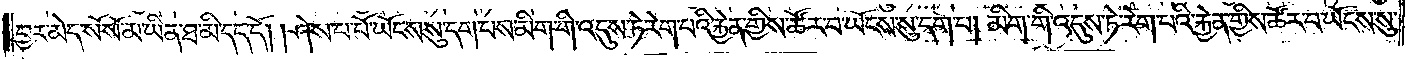བྱར་མེད་སོ་སོ་མ་ཡིན་ཐ་མི་དད་དོ། །ཤེས་པ་པོ་ཡོངས་སུ་དག་པས་མིག་གི་འདུས་ཏེ་རེག་པའི་རྐྱེན་གྱིས་ཚོར་བ་ཡོངས་སུ་དག་པ། མིག་གི་འདུས་ཏེ་རེག་པའི་རྐྱེན་གྱིས་ཚོར་བ་ཡོངས་སུ་
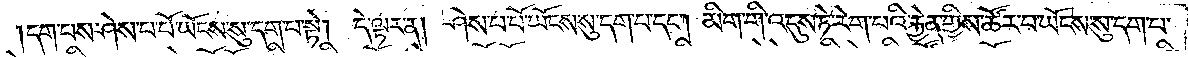དག་པས་ཤེས་པ་པོ་ཡོངས་སུ་དག་པ་སྟེ། དེ་ལྟར་ན། ཤེས་པ་པོ་ཡོངས་སུ་དག་པ་དང༌། མིག་གི་འདུས་ཏེ་རེག་པའི་རྐྱེན་གྱིས་ཚོར་བ་ཡོངས་སུ་དག་པ་
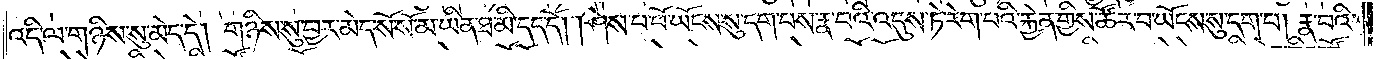འདི་ལ་གཉིས་སུ་མེད་དེ། གཉིས་སུ་བྱར་མེད་སོ་སོ་མ་ཡིན་ཐ་མི་དད་དོ། །ཤེས་པ་པོ་ཡོངས་སུ་དག་པས་རྣ་བའི་འདུས་ཏེ་རེག་པའི་རྐྱེན་གྱིས་ཚོར་བ་ཡོངས་སུ་དག་པ། རྣ་བའི་
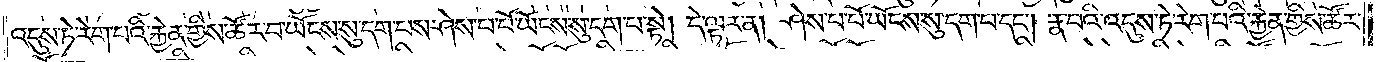འདུས་ཏེ་རེག་པའི་རྐྱེན་གྱིས་ཚོར་བ་ཡོངས་སུ་དག་པས་ཤེས་པ་པོ་ཡོངས་སུ་དག་པ་སྟེ། དེ་ལྟར་ན། ཤེས་པ་པོ་ཡོངས་སུ་དག་པ་དང༌། རྣ་བའི་འདུས་ཏེ་རེག་པའི་རྐྱེན་གྱིས་ཚོར་
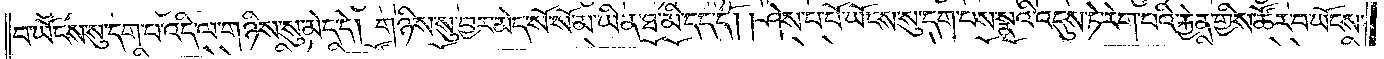བ་ཡོངས་སུ་དག་པ་འདི་ལ་གཉིས་སུ་མེད་དེ། གཉིས་སུ་བྱར་མེད་སོ་སོ་མ་ཡིན་ཐ་མི་དད་དོ། །ཤེས་པ་པོ་ཡོངས་སུ་དག་པས་སྣའི་འདུས་ཏེ་རེག་པའི་རྐྱེན་གྱིས་ཚོར་བ་ཡོངས་
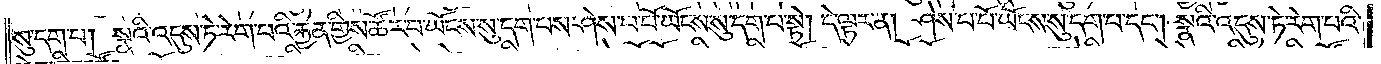སུ་དག་པ། སྣའི་འདུས་ཏེ་རེག་པའི་རྐྱེན་གྱིས་ཚོར་བ་ཡོངས་སུ་དག་པས་ཤེས་པ་པོ་ཡོངས་སུ་དག་པ་སྟེ། དེ་ལྟར་ན། ཤེས་པ་པོ་ཡོངས་སུ་དག་པ་དང༌། སྣའི་འདུས་ཏེ་རེག་པའི་
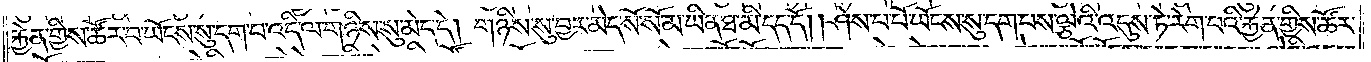རྐྱེན་གྱིས་ཚོར་བ་ཡོངས་སུ་དག་པ་འདི་ལ་གཉིས་སུ་མེད་དེ། གཉིས་སུ་བྱར་མེད་སོ་སོ་མ་ཡིན་ཐ་མི་དད་དོ། །ཤེས་པ་པོ་ཡོངས་སུ་དག་པས་ལྕེའི་འདུས་ཏེ་རེག་པའི་རྐྱེན་གྱིས་ཚོར་
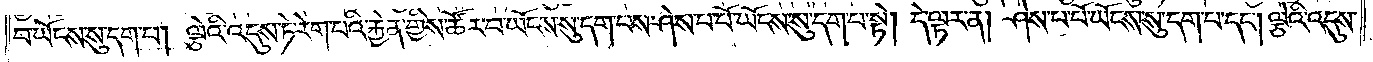བ་ཡོངས་སུ་དག་པ། ལྕེའི་འདུས་ཏེ་རེག་པའི་རྐྱེན་གྱིས་ཚོར་བ་ཡོངས་སུ་དག་པས་ཤེས་པ་པོ་ཡོངས་སུ་དག་པ་སྟེ། དེ་ལྟར་ན། ཤེས་པ་པོ་ཡོངས་སུ་དག་པ་དང༌། ལྕེའི་འདུས་
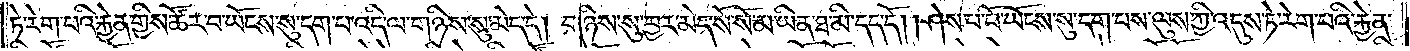ཏེ་རེག་པའི་རྐྱེན་གྱིས་ཚོར་བ་ཡོངས་སུ་དག་པ་འདི་ལ་གཉིས་སུ་མེད་དེ། གཉིས་སུ་བྱར་མེད་སོ་སོ་མ་ཡིན་ཐ་མི་དད་དོ། །ཤེས་པ་པོ་ཡོངས་སུ་དག་པས་ལུས་ཀྱི་འདུས་ཏེ་རེག་པའི་རྐྱེན་
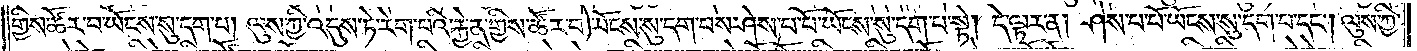གྱིས་ཚོར་བ་ཡོངས་སུ་དག་པ། ལུས་ཀྱི་འདུས་ཏེ་རེག་པའི་རྐྱེན་གྱིས་ཚོར་བ་ཡོངས་སུ་དག་པས་ཤེས་པ་པོ་ཡོངས་སུ་དག་པ་སྟེ། དེ་ལྟར་ན། ཤེས་པ་པོ་ཡོངས་སུ་དག་པ་དང༌། ལུས་ཀྱི་
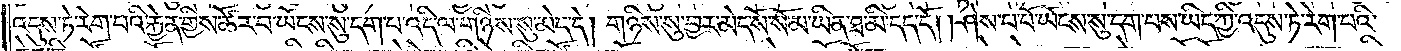འདུས་ཏེ་རེག་པའི་རྐྱེན་གྱིས་ཚོར་བ་ཡོངས་སུ་དག་པ་འདི་ལ་གཉིས་སུ་མེད་དེ། གཉིས་སུ་བྱར་མེད་སོ་སོ་མ་ཡིན་ཐ་མི་དད་དོ། །ཤེས་པ་པོ་ཡོངས་སུ་དག་པས་ཡིད་ཀྱི་འདུས་ཏེ་རེག་པའི་
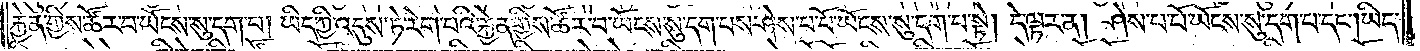རྐྱེན་གྱིས་ཚོར་བ་ཡོངས་སུ་དག་པ། ཡིད་ཀྱི་འདུས་ཏེ་རེག་པའི་རྐྱེན་གྱིས་ཚོར་བ་ཡོངས་སུ་དག་པས་ཤེས་པ་པོ་ཡོངས་སུ་དག་པ་སྟེ། དེ་ལྟར་ན། ཤེས་པ་པོ་ཡོངས་སུ་དག་པ་དང༌། ཡིད་
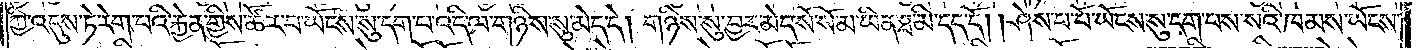ཀྱི་འདུས་ཏེ་རེག་པའི་རྐྱེན་གྱིས་ཚོར་བ་ཡོངས་སུ་དག་པ་འདི་ལ་གཉིས་སུ་མེད་དེ། གཉིས་སུ་བྱར་མེད་སོ་སོ་མ་ཡིན་ཐ་མི་དད་དོ། །ཤེས་པ་པོ་ཡོངས་སུ་དག་པས་སའི་ཁམས་ཡོངས་
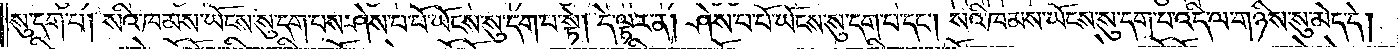སུ་དག་པ། སའི་མཁས་ཡོངས་སུ་དག་པས་ཤེས་པ་པོ་ཡོངས་སུ་དག་པ་སྟེ། དེ་ལྟར་ན། ཤེས་པ་པོ་ཡོངས་སུ་དག་པ་དང༌། སའི་ཁམས་ཡོངས་སུ་དག་པ་འདི་ལ་གཉིས་སུ་མེད་དེ།
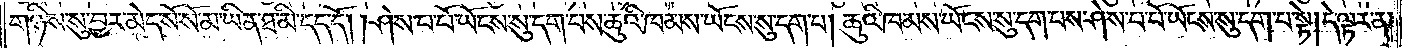གཉིས་སུ་བྱར་མེད་སོ་སོ་མ་ཡིན་ཐ་མི་དད་དོ། །ཤེས་པ་པོ་ཡོངས་སུ་དག་པས་ཆུའི་ཁམས་ཡོངས་སུ་དག་པ། ཆུའི་ཁམས་ཡོངས་སུ་དག་པས་ཤེས་པ་པོ་ཡོངས་སུ་དག་པ་སྟེ། དེ་ལྟར་ན།
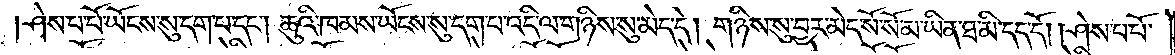ཤེས་པ་པོ་ཡོངས་སུ་དག་པ་དང༌། ཆུའི་ཁམས་ཡོངས་སུ་དག་པ་འདི་ལ་གཉིས་སུ་མེད་དེ། གཉིས་སུ་བྱར་མེད་སོ་སོ་མ་ཡིན་ཐ་མི་དད་དོ། །ཤེས་པ་པོ་
